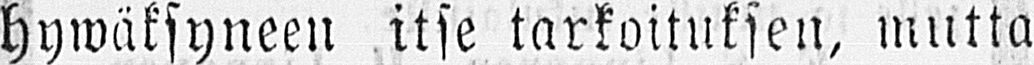hywäksyneen itse tarkoituksen, mutta
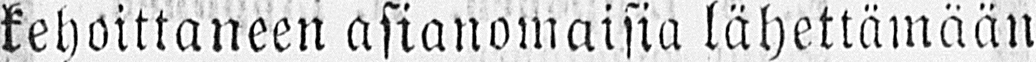kehoittaneen asianomaisia lähettämään
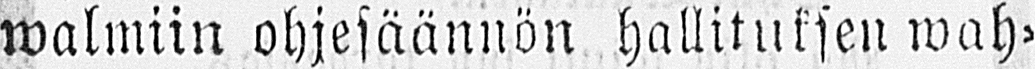walmiin ohjesäännön hallituksen wah-
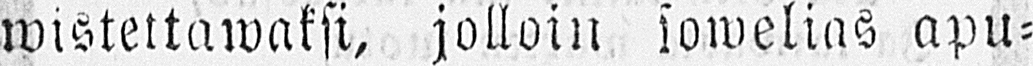wistettawaksi, jolloin sowelias apu-
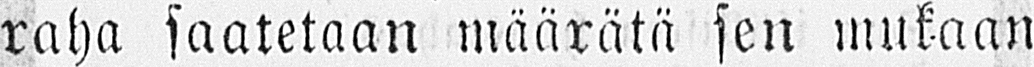raha saatetaan määrätä sen mukaan
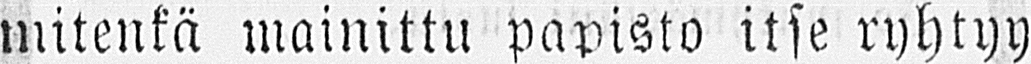mitenkä mainittu papisto itse ryhtyy
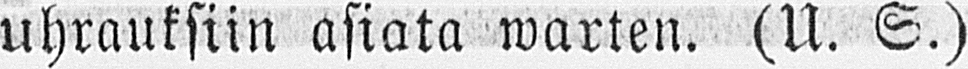uhrauksiin asiata warten. (U. S.)
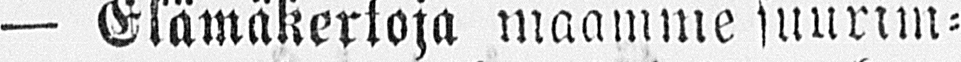— Elämäkertoja maamme suurim-
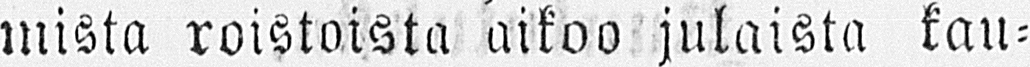mista roistoista aikoo julaista kau-
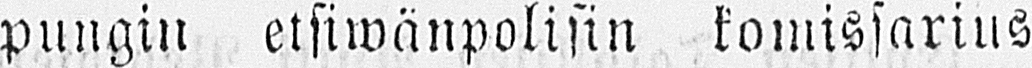pungin etsiwänpolisin komissarius
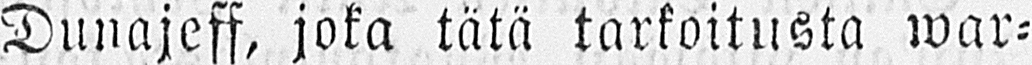Dunajeff, joka tätä tarkoitusta war-
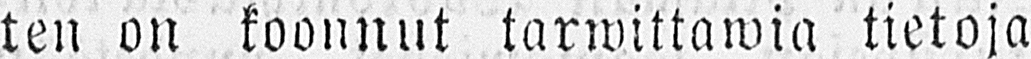teunon koonnut tarivittawia tietoja
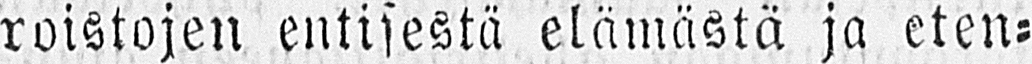roistojen entisestä elämästä ja eten-
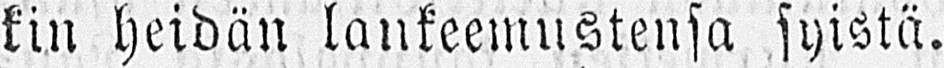kin heidän lankeemustensa syistä.
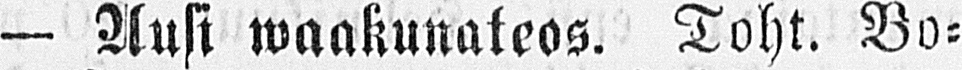— Uusi waakunateos. Toht. Vo-
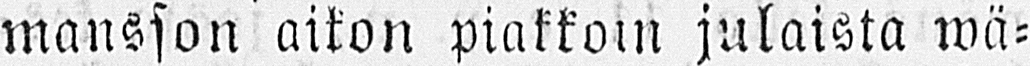mansson aikon piakkoin juloista wä-
